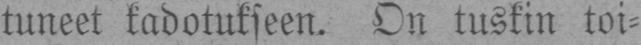tuneet kadotukseen. On tuskin toi-
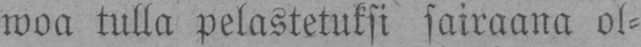woa tulla pelastetuksi sairaana ol-
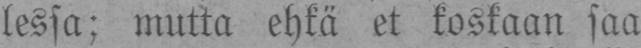lessa; mutta ehkä et koskaan saa
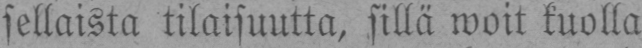sellaista tilaisuutta, sillä woit kuolla
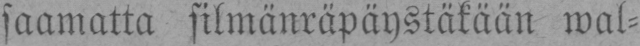saamatta silmänräpäystäkään wal-
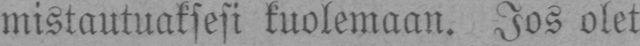mistautuaksesi kuolemaan. Jos olet
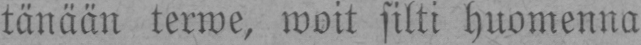tänään terwe, woit silti huomenna
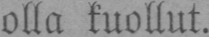olla kuollut.
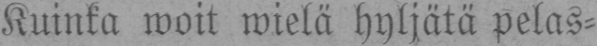Kuinka woit wielä hyljätä pelas-
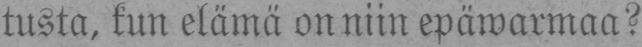tusta, kun elämä on niin epäwarmaa?
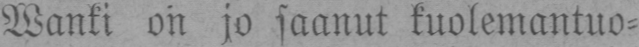Wanki on jo saanut kuolemantuo-
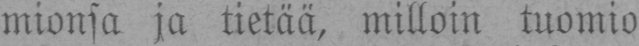mionsa ja tietää, milloin tuomio
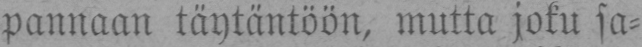pannaan täytäntöön, mutta joku sa-
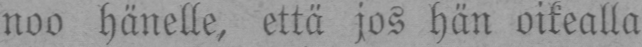noo hänelle, että jos hän oikealla
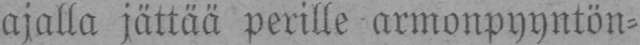ajalla jättää perille armonpyyntön-
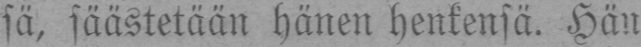sä, säästetään hänen henkensä. Hän
